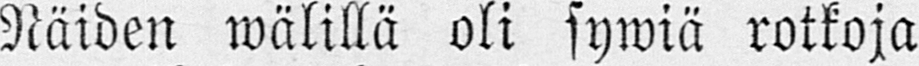Näiden wälillä oli sywiä rotkoja
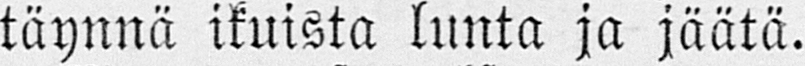täynnä ikuista lunta ja jäätä.
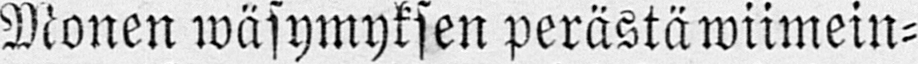Monen wäsymyksen perästä wiimein-
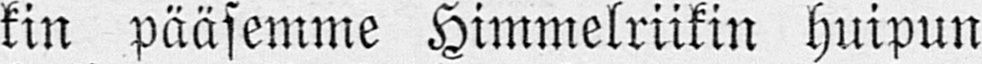kin pääsemme Himmelriikin huipun
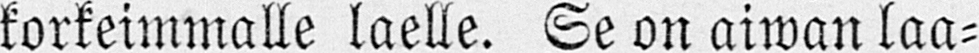korkeimmalle laelle. Se on aiwan laa-
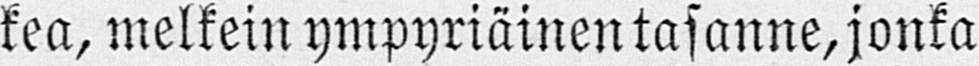kea, melkein ympyriäinen tasanne, jonka
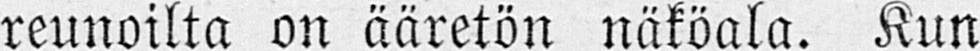reunoilta on ääretön näköala. Kun
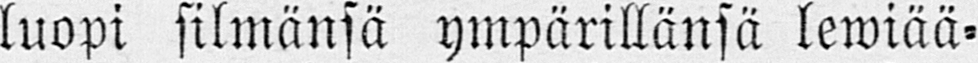luopi silmänsä ympärillänsä lewiää-
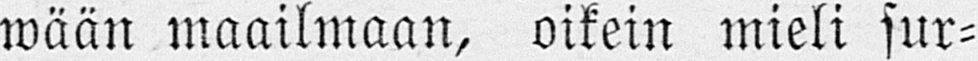wään maailmaan, oikein mieli sur-
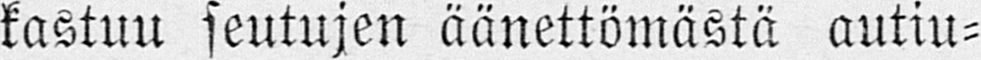kastuu seutujen äänettömästä autiu-
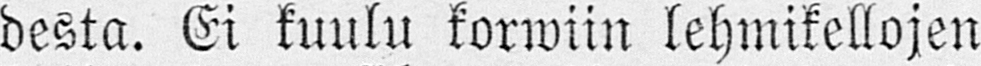desta. Ei kuulu korwiin lehmikellojen
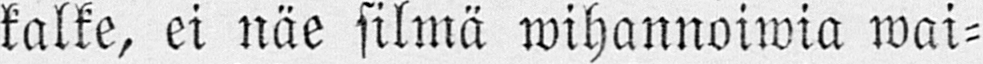kalke, ei näe silmä wihannoiwia wai-
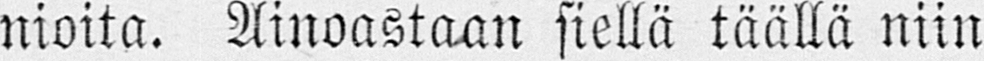nioita. Ainoastaan siellä täällä niin
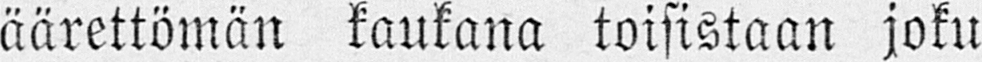äärettömän kaukana toisistaan joku
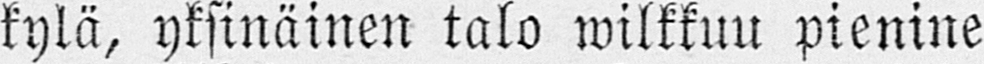kylä, yksinäinen talo wilkkuu pienine
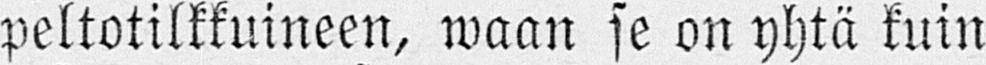peltotilkkuineen, waan se on yhtä kuin
